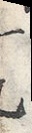十九
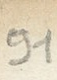91
